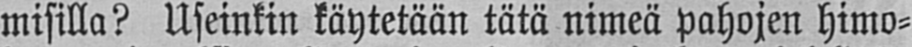misilla? Useinkin käytetään tätä nimeä Pahojen himo-
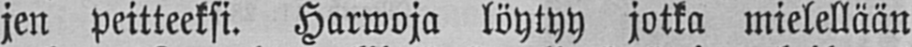jen peitteeksi. Harwoja löytyy jotka mielellään
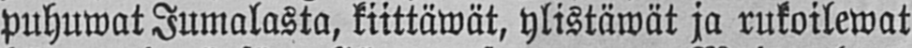puhuwat Jumalasta, kiittäwät, ylistäwät ja rukoilewat
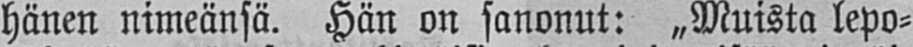hänen nimeänsä. Hän on sanonut: „Muista lepo-
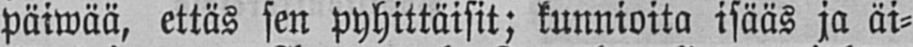päiwää, ettäs sen pyhittäisit; kunnioita isääs ja äi-
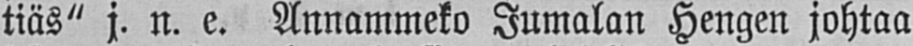tiäs" j. n.e. Annammeko Jumalan Hengen johtaa
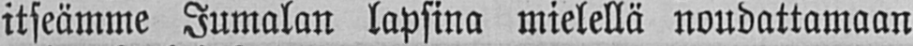itseämme Jumalan lapsina mielellä noudattamaan
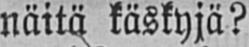näitä käskyjä?
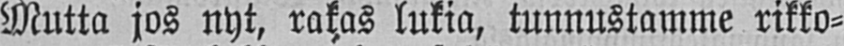Mutta jos nyt, rakas lukia, tunnustamme rikko-
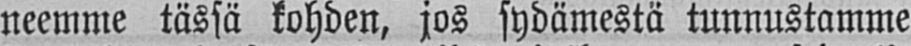neemme tässä kohden, jos sydämestä tunnustamme
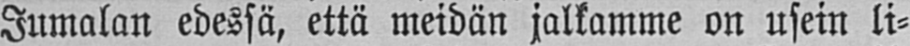Jumalan edessä, että meidän jalkamme on usein li-
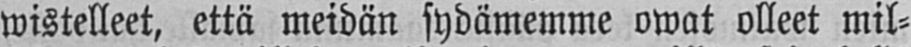wistelleet, että meidän sydämemme owat olleet mil-
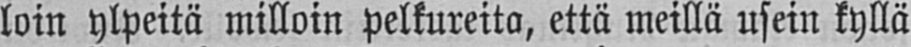loin ylpeitä milloin pelkureita, että meillä usein kyllä
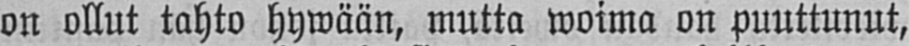on ollut tahto hywään, mutta woima on puuttunut,
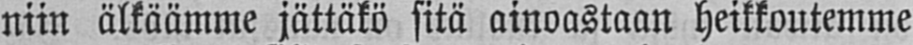niin älkäämme jättäkö sitä ainoastaan heikkoutemme
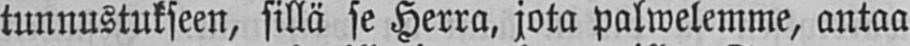tunnustukseen, sillä se Herra, jota palwelemme, antaa
